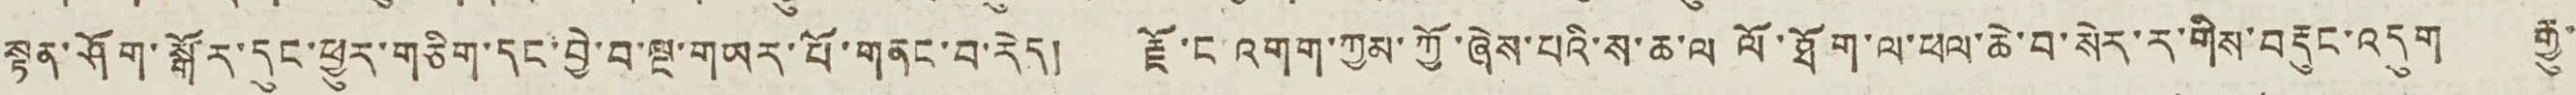སྟན་ཤོག་སྒོར་དུང་ཕྱུར་གཅིག་དང་བྱེ་བ་ལྔ་གཡར་པོ་གནང་བ་རེད། རྗོ་ང འགག་ཀྱམ་ཀྱོ་ཞེས་པའི་ས་ཆ་ལ ལོ་ཐོག་ལ་ཕལ་ཆེ་བ་སེར་ར་གིས་བརྡུང་འདུག རྒྱུ་
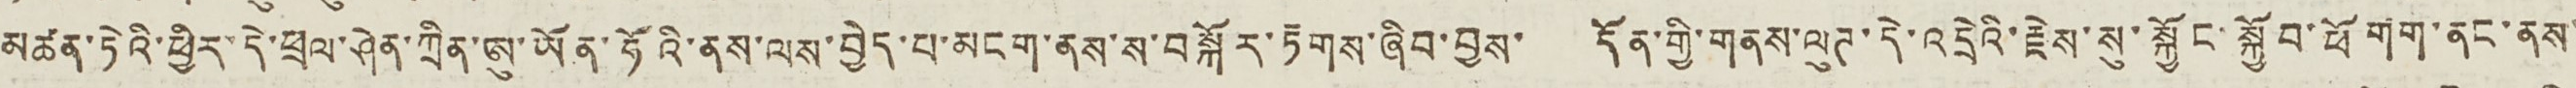མཚན་ཏེའི་ཕྱིར་དེ་ཕྲལ་ཤེན་ཀྲིན་ཨུ་ཡོན་ཧོའི་ནས་ལས་བྱེད་པ་མངག་ནས་ས་བསྐོར་རྟགས་ཞིབ་བྱས་ དོན་གྱི་གནས་ལུཊ་དེ་འདྲེའི་རྗེས་སུ་སྐྱོང་སྐྱོབ་ཕོགག་ནང་ནས་
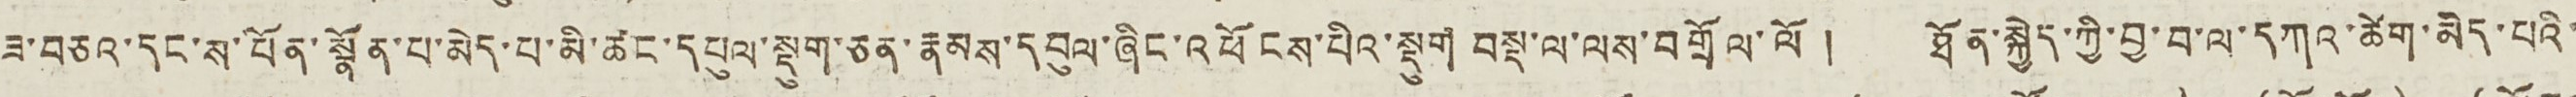ཟ་བཅའ་དང་ས་བོན་སྣོན་པ་མེད་པ་མི་ཚང་དཔུལ་སྡུག་ཅན་རྣམས་དབུལ་ཞིང་འཕོངས་པིའ་སྡུག བསྡ་ལ་ལས་བགྲོལ་ལོ ། ཐོན་སྐྱེད་ཀྱི་བྱ་བ་ལ་དགའ་ཚེག་མེད་པའི་
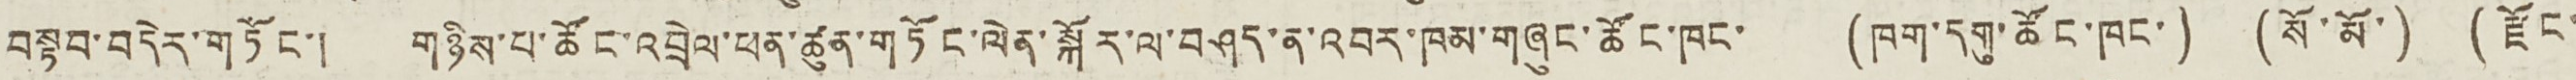བསྟབ་བདེར་གཏོང་། གཉིས་པ་ཚོང་འབྲེལ་ཕན་ཚུན་གཏོང་ལེན་སྐོར་ལ་བཤད་ན་འབར་ཁམ་གཞུང་ཚོང་ཁང་ (ཁག་དགུ་ཚོང་ཁང་) (སོ་མོ་) (རྫོང་
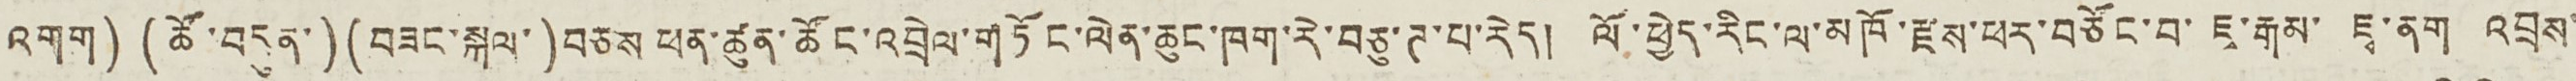འགག) (ཚོ་བདུན་) (བཟང་སྐལ་)བཅས ཕན་ཚུན་ཚོང་འབྲེལ་གཏོང་ལེན་ཆུང་ཁག་རེ་བཅུ་ཊ་པ་རེད། ལོ་ཕྱེད་རིང་ལ་མཁོ་རྫས་ཕར་བཙོང་བ་ ཇྭ་རྒམ་ ཇྭ་ནག འབྲས་
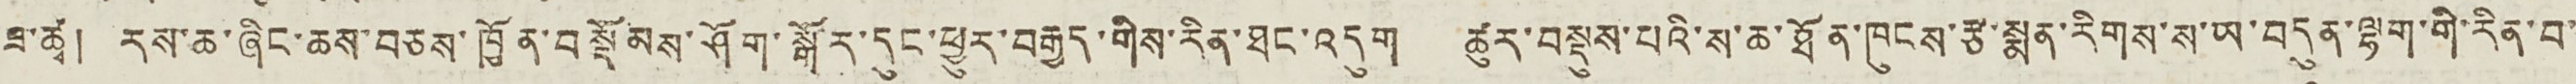ཟ་ཚྭ། རས་ཆ་ཞིང་ཆས་བཅས་ཁྱོན་བསྡོམས་ཤོག་སྒོར་དུང་ཕྱུར་བརྒྱད་གིས་རིན་ཐང་འདུག ཚུར་བསྡུས་པའི་ས་ཆ་ཐོན་ཁུངས་རྩ་སྨན་རིགས་ས་ཡ་བདུན་ལྷག་གི་རིན་བ་
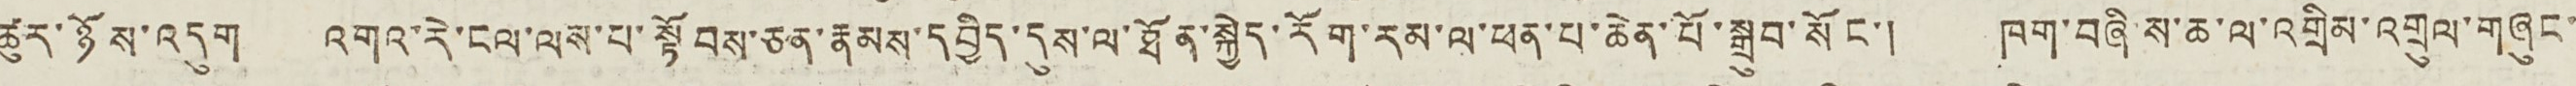ཚུར་ཉོས་འདུག འགའ་རེ་ངལ་ལས་པ་སྟོབས་ཅན་རྣམས་དབྱིད་དུས་ལ་ཐོན་སྐྱེད་རོག་རམ་ལ་ཕན་པ་ཆེན་པོ་སྒྲུབ་སོང་། ཁག་བཞི་ས་ཆ་ལ་འགྲིམ་འགྲུལ་གཞུང་
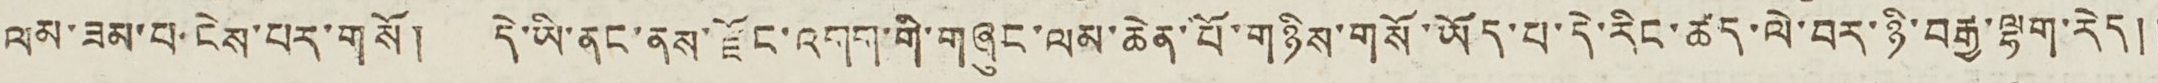ལམ་ཟམ་བ་ངེས་པར་གསོ། དེ་ཡི་ནང་ནས་རྫོང་འགག་གི་གཞུང་ལམ་ཆེན་པོ་གཉིས་གསོ་ཡོད་པ་དེ་རིང་ཚད་ལེ་བར་ཉི་བརྒྱ་ལྷག་རེད༎
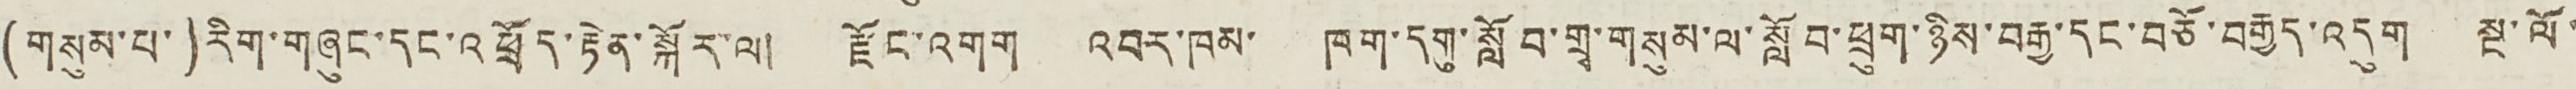(གསུམ་པ་)རིག་གཞུང་དགན་འཕྲོད་རྟེན་སྐོར་ལ། རྫོང་འགག འབར་ཁམ་ ཁག་དགུ་སློབ་གྲྭ་གསུམ་ལ་སློབ་ཕྲུག་ཉིས་བརྒྱ་དང་བཅོ་བརྒྱད་འདུག སྔ་ལོ་
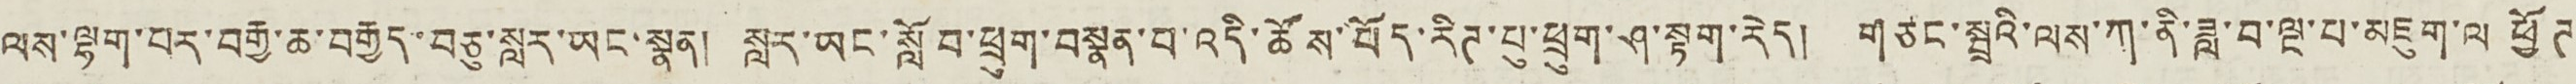ལས་ལྷག་པར་བརྒྱ་ཆ་བརྒྱད་བཅུ་སླར་ཡང་སྣན། སླར་ཡང་སློབ་ཕྲུག་བསྣན་པ་འདི་ཚོས་བོད་རིཊ་པུ་ཕྲུག་ཤ་སྟག་རེད། གཙང་སྦྲའི་ལས་ཀ་ནི་ཟླ་བ་ལྔ་པ་མཇུག་ལ ཕྱོཊ་
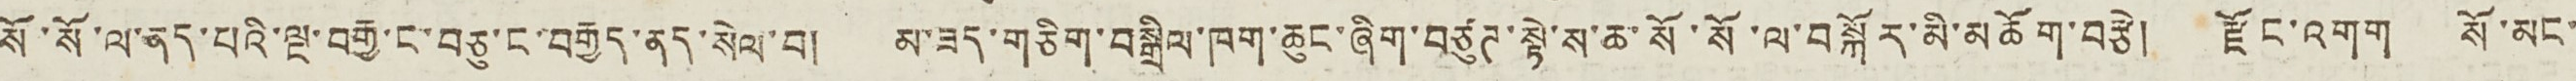སོ་སོ་ལ་ནད་པའི་ལྔ་བརྒྱ་ང་བཅུ་ང་བརྒྱད་ནས་སེལ་བ། མ་ཟད་གཅིག་བསྒྲིལ་ཁག་ཆུང་ཞིག་བཙུཊ་སྟེ་ས་ཆ་སོ་སོ་ལ་བསྐོར་མི་མཆོག་བརྩེ། རྫོང་འགག སོ་མང་
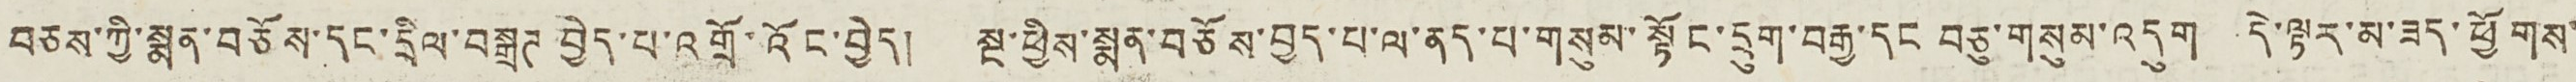བཅས་ཀྱི་སྨན་བཅོས་དང་དྲིལ་བསྒྲཊ བྱེད་པ་འགྲོ་འོང་བྱེད། སྔ་ཕྱིས་སྨན་བཅོས་བྱད་པ་ལ་ནད་པ་གསུམ་སྟོང་དྲུག་བརྒྱ་དང བཅུ་གསུམ་འདུག དེ་ལྟར་མ་ཟད་ཕྱོགས་
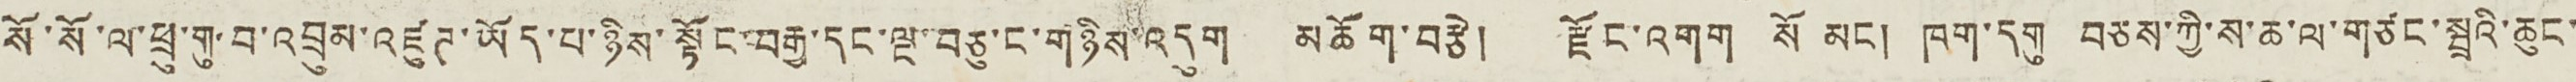སོ་སོ་ལ་ཕྲུ་གུ་བ་འབྲུམ་འཛུཊ་ཡོད་པ་ཉིས་སྟོང་བརྒྱ་དང་ལྔ་བཅུ་ང་གཉིས་འདུག མཆོག་བརྩེ། རྫོང་འགག སོ མང། ཁག་དགུ བཅས་ཀྱི་ས་ཆ་ལ་གཙང་སྦྲའི་ཆུང་
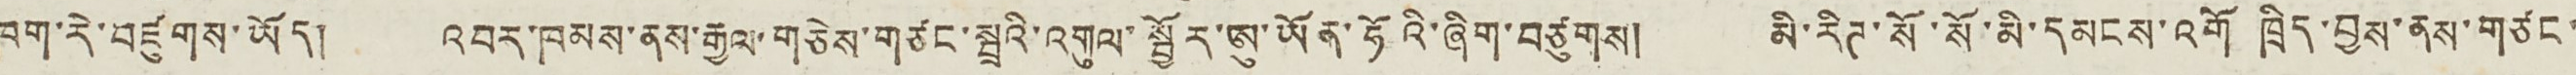ཁག་རེ་བཛུགས་ཡོད། འབར་ཁམས་ནས་རྒྱལ་གཅེས་གཙང་སྦྲའི་འགུལ་སྦྱོར་ཨུ་ཡོན་ཧོའི་ཞིག་བཙུགས། མི་རིཊ་སོ་སོ་མི་དམངས་འགོ ཁྲིད་བྱས་ནས་གཙང་
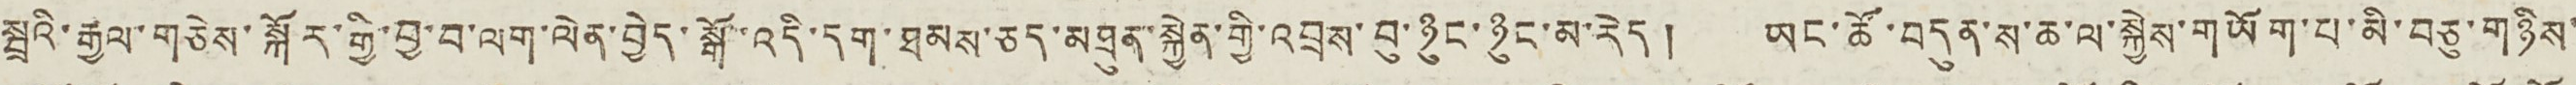སྦྲའི་རྒྱལ་གཅེས་སྐོར་གྱི་བྱ་བ་ལག་ལེན་བྱེད་སྒོ་འདི་དག་ཐམས་ཅད་མཐུན་སྐྱེན་གྱི་འབྲས་བུ་ཉུང་ཉུང་མ་རེད། ཡང་ཚོ་བདུན་ས་ཆ་ལ་སྐྱེས་གཡོག་པ་མི་བཅུ་གཉིས་
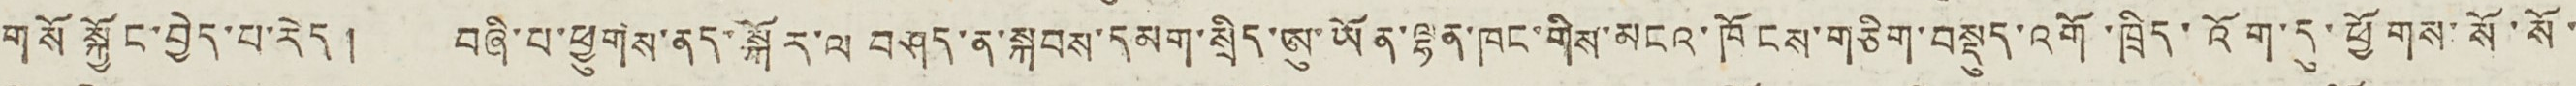གསོ སྐྱོང་བྱེད་པ་རེད། བཞི་པ་ཕྱུགས་ནད་སྐོར་ལ བཤད་ན་སྐབས་དམག་སྲིད་ཨུ་ཡོན་ལྷན་ཁང་གིས་མངའ་ཁོངས་གཅིག་བསྡུད་འགོ་ཁྲིད་འོག་དུ་ཕྱོགས་སོ་སོ་
